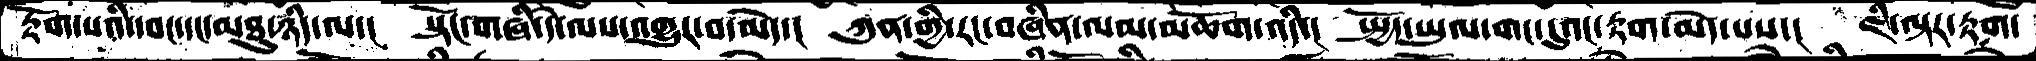རྟོག་པའི་དབང་དང་མཐུ་ཉིད་ལ་།  སྟོང་གཞི་དེ་ལས་འགྱུར་བ་མེད་།  ཀུན་གྱི་རང་བཞིན་ལམ་མཆོག་འདི་།  སྤྱོད་ཡུལ་གང་དུའང་རྟག་མེད་པས་།  ཇི་ལྟར་རྟག་
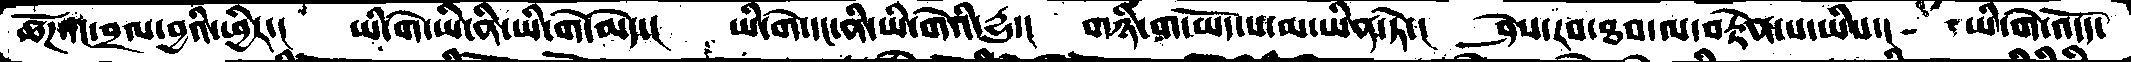ཚོཌ་དང་བྲལ་བྱའི་ཕྱིར་།  ཡི་གེ་ཡི་ནི་ཡི་གེ་མེད་།  ཡི་གེ་དང་ནི་ཡི་གེའི་དྱུ་།  གཉི་ག་ཡོད་པ་མ་ཡིན་ཏེ་།  ཤེས་རབ་ཐབ་ལ་བརྟེན་པ་ཡིས་།  ཡི་གེ་འདོད་
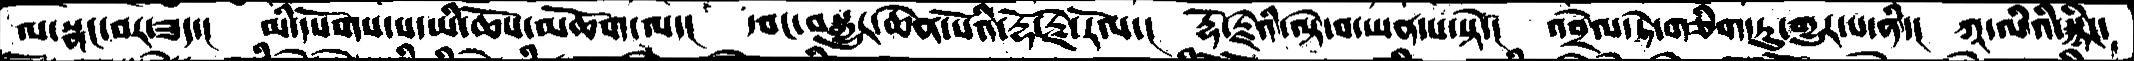ལ་སྣང་བར་ཟད་།   མི་དཔོགས་པ་ཡི་ཆོས་མཆོག་ལ་།  དབང་བསྒྱུར་ཆེན་པོའི་རྡོ་རྗེ་རོལ་།  རྡོ་རྗེའི་ལྟེ་བ་ཡན་པ་སྟེ་།  འབྲེལ་ཏེ་གཅིག་ཏུ་གྱུར་པ་ནི་།  ཀཱ་ལིའི་སྙིང་
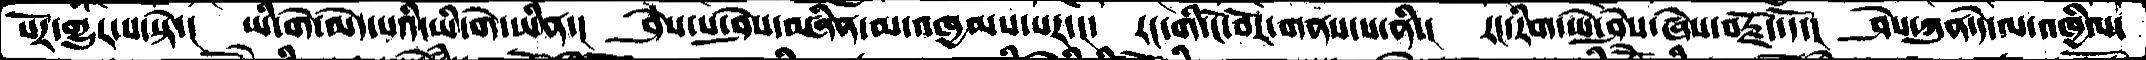པོར་གྱུར་པ་སྟེ་།  ཡི་གེ་མེད་པའི་ཡི་གེ་ཡིན་།  ཤེས་པ་ཤེས་བཞིན་མ་འཁྱམས་པར་།་  རག་གི་ངོ་བོར་གནས་པ་ནི་།  རང་རིག་ཡེ་ཤེས་ཞེས་བརྗོད་དོ་།  ཤེས་ཀུན་དེ་ལ་འཁྱིལ་
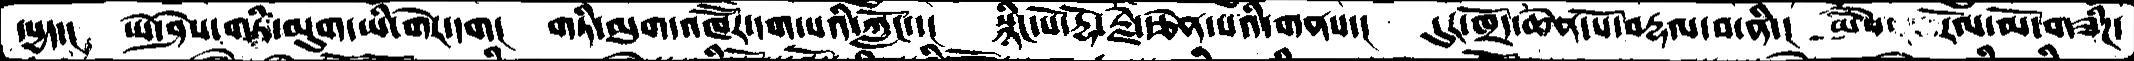དཔྱད་། ཡེ་ཤེས་གཏི་མུག་ཡི་གེར་དག། གཏི་མུག་འཁོཽར་དག་པའི་ཀློང་། སྙིང་པོ་རྡོ་རྗེ་དཅེན་པའི་གནས་། དུར་ཁྲོད་ཆེན་པོ་བརྡལ་བ་ནི་། ཡཻས་  རོལ་མོ་གཟིཌ་
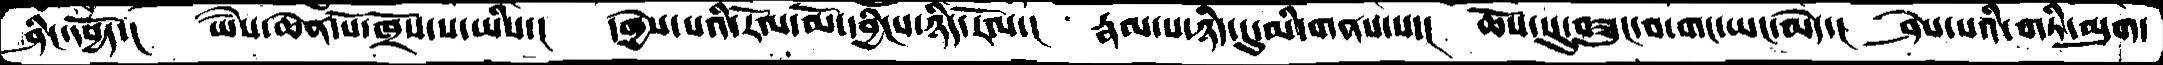ཤིང་དཔྱོད་།  ཡཻས་ཆེན་པོ་ཁྲོས་པ་ཡིས་།  དགྱེས་པའི་རོལ་མོ་དབྱིངས་ཉིད་རོལ་།  རྣམ་པ་ཉིད་དུ་མི་གནས་པ་།  ཆོས་སུ་བཟུང་བ་གང་ཡང་མེད་།  ཤེས་པའི་གཏི་མུག་
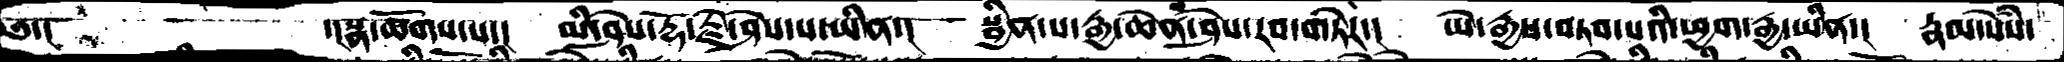༅་།  ་།སྣ་ཚོགས་པ་།  མི་ཤེས་རྡོ་རྗེ་ཤེས་པ་ཡིན་།  སྦྱིན་པ་རྒྱ་ཆེན་ཤེས་རབ་གཏེར་།  ཡེ་རྒྱས་བཏབ་པའི་ཕྱག་རྒྱ་ཡིན་།  རྣམ་སེཾས་
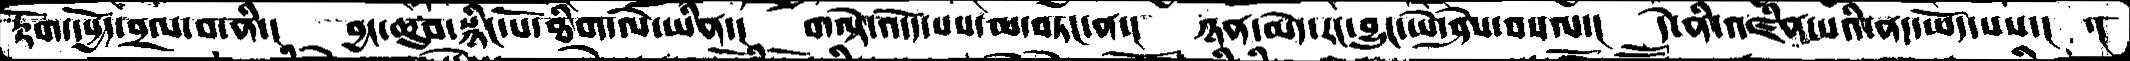རྟོག་དཔྱོད་བྲལ་བ་ནི་།  བྱང་ཆུབ་སྙིང་པོ་ཐིག་ལེ་ཡིན་།  གལྟེ་འདོད་པས་མ་བཏང་ན་།  ཉན་མེད་རང་བྱུང་ཡེ་ཤེས་བསལ་།  དེ་ནི་འཛིན་པའི་ནད་ཡོད་པས་།  ་།
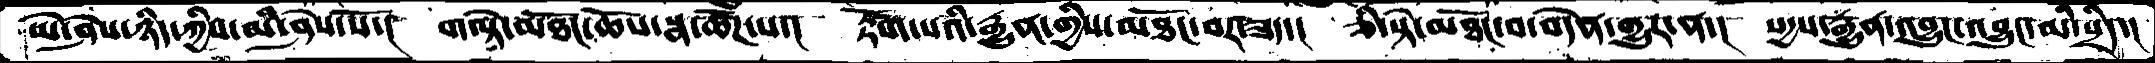ཡེ་ཤེས་ཉིད་ཀྱིས་མི་ཤེས་སོ་།  གལྟེ་མཐོང་ཆོས་སྣ་ཚོཌ་པ་།།  རྟོག་པའི་རྒྱུན་གྱིས་མཐོང་བར་ཟད་།  ཅི་སྟེ་མཐོང་བ་བདེན་གྱུར་ན་།  སདྱས་རྒྱུན་འབྱུང་འབྱུང་མི་སྲིད་།
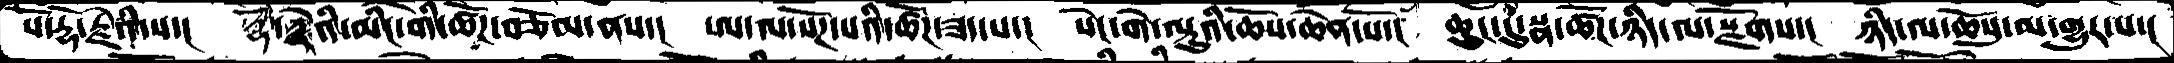པོ་རྡོ་རྗེའི་ས་།   རྡོ་རྗེའི་མིང་གི་ཚོཌ་བཅོམ་ནས་།  ཨ་ལ་སོཌ་པའི་ཚོཌ་ཟད་པ་།  སེང་གེ་ལྟུའི་ཆོས་ཆེན་པོ་།  ཆུང་ངུ་སྣ་ཚོཌ་ཉིད་ལ་སྫོགས་།  ཉིད་ལ་ཆོསུ་མ་གྱུར་པ་།
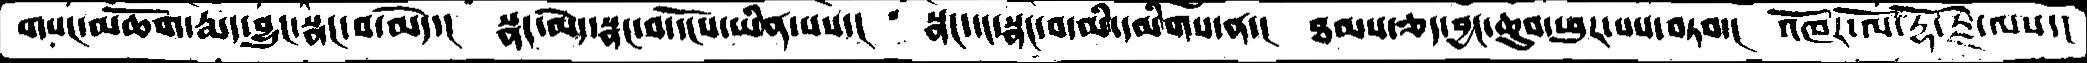གསང་མཆོག་རྨད་བྱུང་སྣང་བ་མེད་།  སྣང་མེད་སྣང་བ་དངོས་ཡིན་པས་།  སྣང་དང་སྣང་བ་མི་དམིགས་ན་།  ཐམས་ཅད་བྱང་ཆུབ་ཕུར་པས་བཏབ་།  འཁོར་ལོ་རྡོ་རྗེ་ལས་།
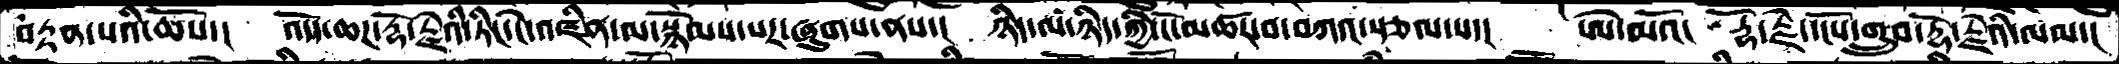བརྟན་པའི་ཆོས་།  འདོད་ཆཌ་རྡོ་རྗེའི་ཏིང་ངེ་འཛིན་ལ་སྙོམས་པར་ཞུགས་ནས་།  ཉིད་ལ་ཉིད་ཀྱི་ངོ་མཚར་བ་བཀའ་སྩལ་པ་།  ཨེ་མའོ།  རྡོ་རྗེ་དངོས་གྲུབ་རྡོ་རྗེའི་ལམ་།
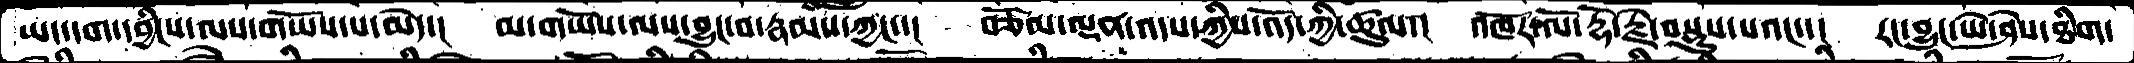ཡང་དག་དབྱིངས་ལས་གཡོས་པ་མེད་།  མ་གཡོས་ལས་བྱུང་བ་རྣམས་ཀྱང་།  བཅོམ་ལྡན་འདས་ཀྱིས་འོད་ཀྱི་ཚུལ་།  འཁོར་ལོ་རྡོརྗེ་བསྡུས་པའང་་།  རང་བྱུང་ཡེ་ཤེས་ཐིག་
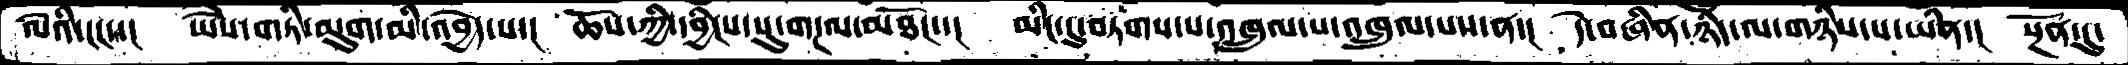ལེའི་ངང་་།  ཡཻས་གཏི་མུག་མི་འབྱེད་པ་།  ཆོས་ཀྱི་དབྱིངས་སུ་ག་ལ་མཐོང་་།  མིང་དུ་བཏགས་པ་འཁྲུལ་པ་འཁྲུལ་པས་ན་།  དེ་བཞིན་ཉིད་ལ་གཉིས་པ་ཡིན་།  སྔོན་དུ་
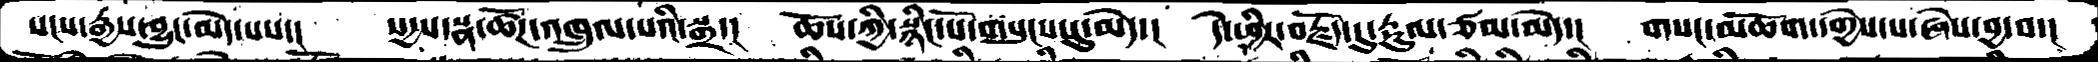སངས་རྒྱས་བྱུང་མེད་པས་།  སདྱས་སྣ་ཚོཌ་འཁྲུལ་པའི་སྒྲ་།  ཆོས་ཀྱི་སྙིང་པོ་གསུངས་དུ་མེད་།  དེ་ཕྱིར་བརྗོད་དུ་རྡུལ་ཙམ་མེད་།  གསང་མཆོག་དགྱེས་པ་ཞེས་བྱ་བ་།
